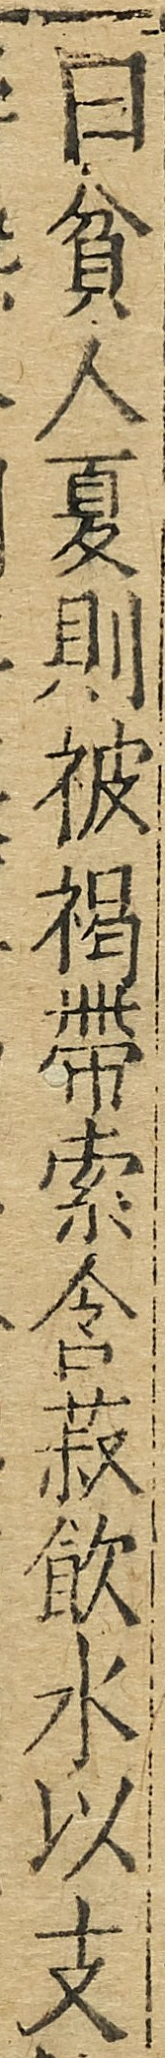曰貧人夏則被褐帶索含菽飲水以支
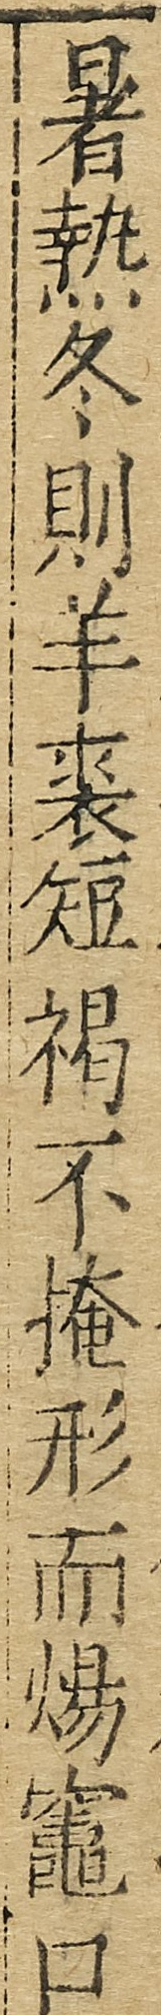暑熱冬則羊裘短褐不掩形而煬竈口
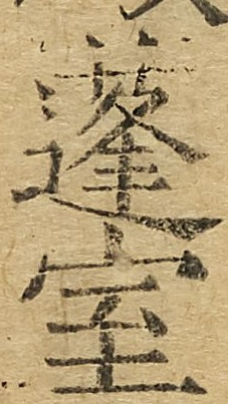蓬室
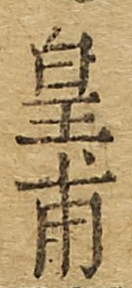皇甫
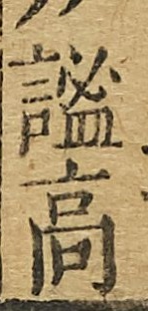謐高
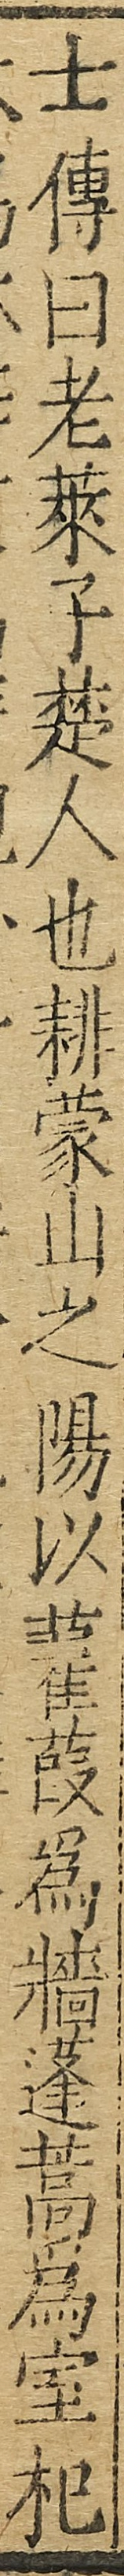士傳曰老萊子楚人也耕蒙山之陽以雚葭為牆蓬蒿為室杞
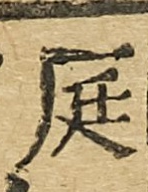庭
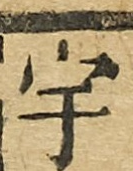宇
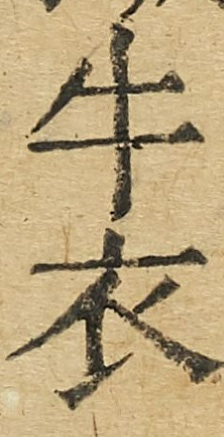牛衣
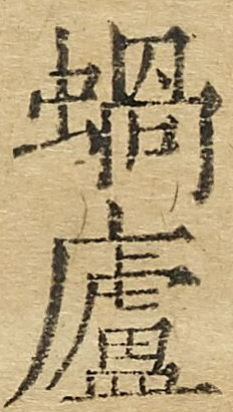蝸廬
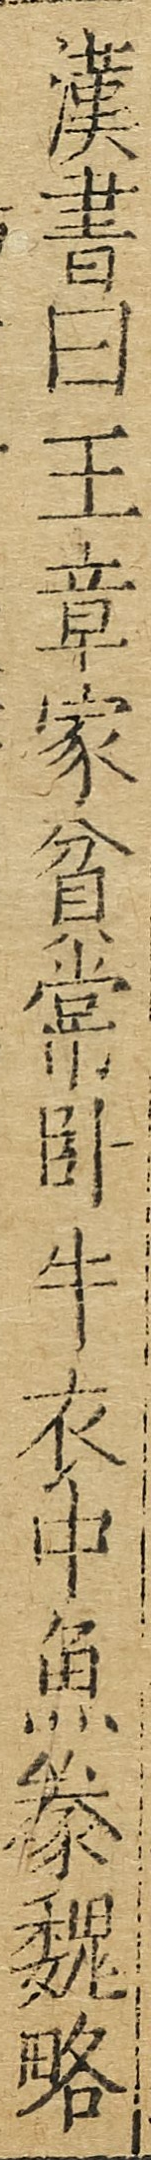漢書曰王章家貧常臥牛衣中魚豢魏略
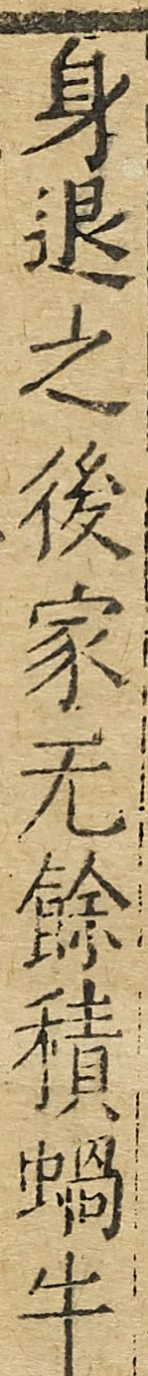身退之後家無餘積蝸牛
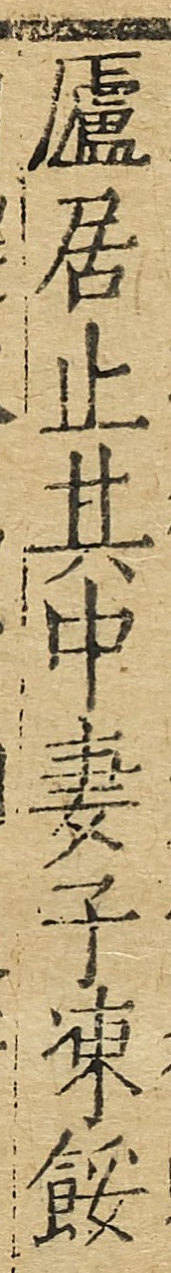廬居止其中妻子凍餒
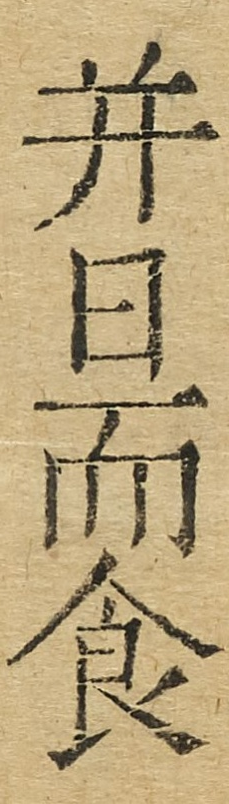並日而食
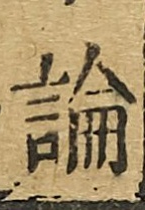論
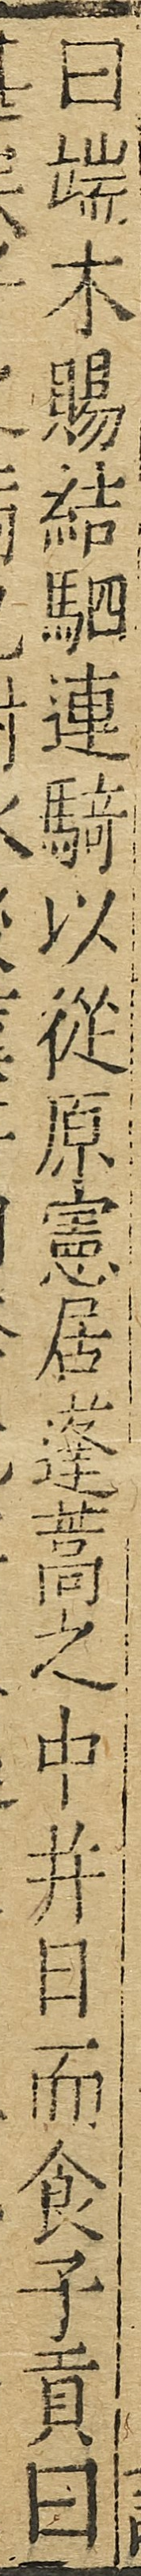曰端木賜結駟連騎以從原憲居蓬蒿之中幷日而食子貢曰
